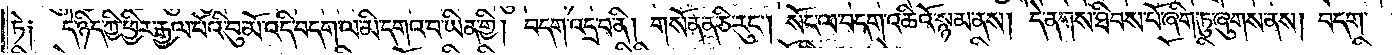ཏེ༑ དེ་ཉིད་ཀྱི་ཕྱིར་རྒྱལ་པོའི་བུ་མོ་འདི་བདག་ལ་མི་དགའ་བ་ཡིན་གྱི། བདག་འདྲ་བ་ནི། གསོན་ན་ཅི་རུང༌། སོང་ལ་བདག་འཆིའོ་སྙམ་ནས། དེ་ནགས་ཐིབས་པོ་ཞིག་ཏུ་ཞུགས་ནས། བདག་
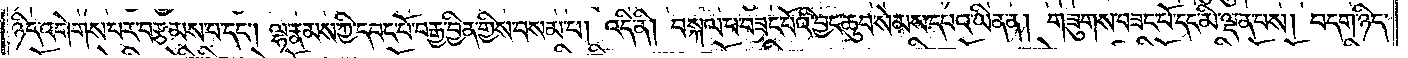ཉིད་འགེགས་པར་བརྩམས་པ་དང༌། ལྷ་རྣམས་ཀྱི་དབང་པོ་བརྒྱ་བྱིན་གྱིས་བསམ་པ། འདི་ནི། བསྐལ་པ་བཟང་པོའི་བྱང་ཆུབ་སེམས་དཔའ་ཡིན་ན། གཟུགས་བཟང་པོ་དང་མི་ལྡན་པས། བདག་ཉིད་
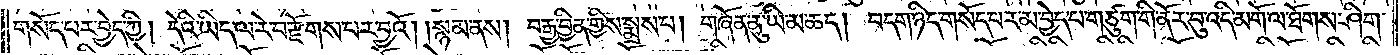གསོད་པར་བྱེད་ཀྱི། དེའི་ཡིད་ལ་རེ་བ་རྫོགས་པར་བྱའོ། །སྙམ་ནས། བརྒྱ་བྱིན་གྱིས་སྨྲས་པ། གཞོན་ནུ་ཡི་མ་ཆད། བདག་ཉིད་གསོད་པར་མ་བྱེད་པ་གཙུག་གི་ནོར་བུ་འདི་མགོ་ལ་ཐོགས་ཤིག་
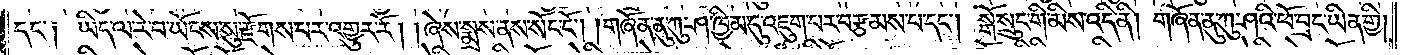དང་༑ ཡིད་ལ་རེ་བ་ཡོངས་སུ་རྫོགས་པར་འགྱུར་རོ། །ཞེས་སྨྲས་ནས་སོང་ངོ༌། །གཞོན་ནུ་ཀུ་ཤ་ཁྱིམ་དུ་འཇུག་པར་བརྩམས་པ་དང༌། སྒོ་སྲུང་གི་མིས་འདི་ནི། གཞོན་ནུ་ཀུ་ཤའི་ཕོ་བྲང་ཡིན་གྱི།
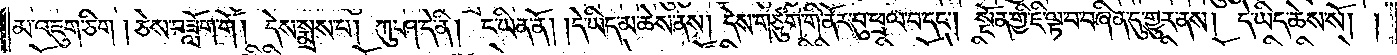མ་འཇུག་ཅིག །ཅེས་བཟློག་གོ །དེ་སྨྲས་པ། ཀུ་ཤ་དེ་ནི། ང་ཡིན་ནོ། །དེ་ཡིད་མ་ཆེས་ནས། དེས་གཙུག་གི་ནོར་བུ་ཕྲལ་བ་དང༌། སྔོན་གྱི་ཇི་ལྟ་བ་བཞིན་དུ་གྱུར་ནས། དེ་ཡིད་ཆེས་སོ། །
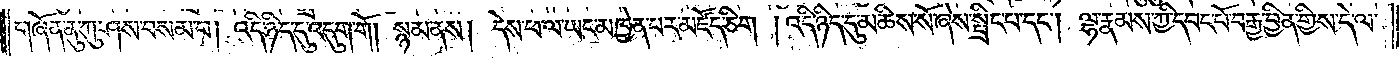གཞོན་ནུ་ཀུ་ཤས་བསམ་པ། འདི་ཉིད་དུ་འདུག་གོ །སྙམ་ནས། དེས་ཕ་ལ་ཡང་མཁྱེན་པར་མཛོད་ཅིག །འདི་ཉིད་དུ་མཆིས་སོ་ཞེས་སྤྲིང་པ་དང༌། ལྷ་རྣམས་ཀྱི་དབང་པོ་བརྒྱ་བྱིན་གྱིས་དེ་ལ་
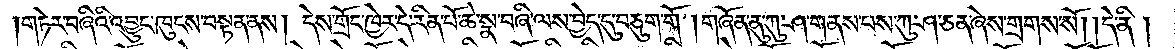གཏེར་བཞིའི་འབྱུང་ཁུངས་བསྟན་ནས། དེས་གྲོང་ཁྱེར་དེ་རིན་པོ་ཆེ་སྣ་བཞི་ལས་བྱེད་དུ་བཅུག་གོ །གཞོན་ནུ་ཀུ་ཤ་གནས་པས་ཀུ་ཤ་ཅན་ཞེས་གྲགས་སོ། །དེ་ནི།
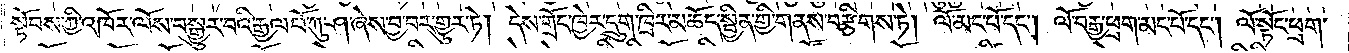སྟོབས་ཀྱི་འཁོར་ལོས་བསྒྱུར་བའི་རྒྱལ་པོ་ཀུ་ཤ་ཞེས་བྱ་བར་གྱུར་ཏེ། དེས་གྲོང་ཁྱེར་དྲུག་ཁྲིར་མཆོད་སྦྱིན་གྱི་གནས་བརྩིགས་ཏེ། ལོ་མང་པོ་དང༌། ལོ་བརྒྱ་ཕྲག་མང་པོ་དང༌། ལོ་སྟོང་ཕྲག་
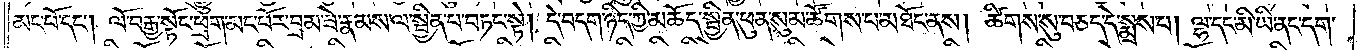མང་པོ་དང༌། ལོ་བརྒྱ་སྟོང་ཕྲག་མང་པོར་བྲམ་ཟེ་རྣམས་ལ་སྦྱིན་པ་བཏང་སྟེ། དེ་བདག་ཉིད་ཀྱི་མཆོད་སྦྱིན་ཕུན་སུམ་ཚོགས་པ་མཐོང་ནས། ཚིགས་སུ་བཅད་དེ་སྨྲས་པ། ལྷ་དང་མི་ཡི་ནང་དག་
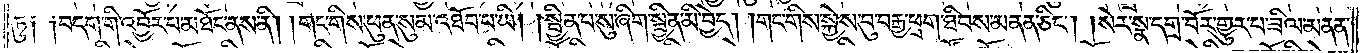ཏུ༑ ༑བདག་གི་འབྱོར་པ་མཐོང་ནས་ནི། །གང་གིས་ཕུན་སུམ་འཐོབ་པ་ཡི། སྦྱིན་པ་སུ་ཞིག་སྦྱིན་མི་བྱེད། །གང་གིས་སྐྱེས་བུ་བརྒྱ་ཕྲག་ཐིབས་མནན་ཅིང༌། །སེར་སྣ་དགྲ་བོར་གྱུར་པ་ཟིལ་མནན་
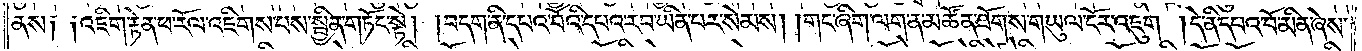ནས༑ ༑འཇིག་རྟེན་ཕ་རོལ་འཇིགས་པས་སྦྱིན་གཏོང་སྟེ། །བདག་ནི་དཔའ་བོའི་དཔའ་རབ་ཡིན་པར་སེམས། །གང་ཞིག་ལག་ན་མཚོན་ཐོགས་གཡུལ་ངོར་འཇུག །དེ་ནི་དཔའ་བོ་མིན་ཞེས་
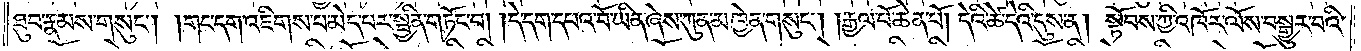ཐུབ་རྣམས་གསུང༌། །གང་དག་འཇིགས་པ་མེད་པར་སྦྱིན་གཏོང་བ། །དེ་དག་དཔའ་བོ་ཡིན་ཞེས་ཀུན་མཁྱེན་གསུང༌། །རྒྱལ་པོ་ཆེན་པོ། དེའི་ཚེ་དེའི་དུས་ན། སྟོབས་ཀྱི་འཁོར་ལོས་བསྒྱུར་བའི་
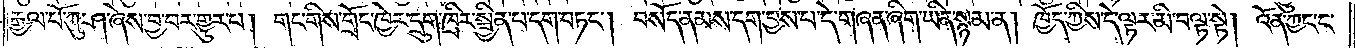རྒྱལ་པོ་ཀུ་ཤ་ཞེས་བྱ་བར་གྱུར་པ། གང་གིས་གྲོང་ཁྱེར་དྲུག་ཁྲིར་སྦྱིན་པ་དག་བཏང༌། བསོད་ནམས་དག་བྱས་པ་དེ་གཞན་ཞིག་ཡིན་སྙམ་ན། ཁྱོད་ཀྱིས་དེ་ལྟར་མི་བལྟ་སྟེ། འོན་ཀྱང་ང་
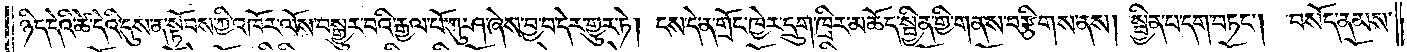ཉིད་དེའི་ཚེ་དེའི་དུས་ན་སྟོབས་ཀྱི་འཁོར་ལོས་བསྒྱུར་བའི་རྒྱལ་པོ་ཀུ་ཤ་ཞེས་བྱ་བ་དེར་གྱུར་ཏེ། ངས་དེ་ན་གྲོང་ཁྱེར་དྲུག་ཁྲིར་མཆོད་སྦྱིན་གྱི་གནས་བརྩིགས་ནས། སྦྱིན་པ་དག་བཏང༌། བསོད་ནམས་
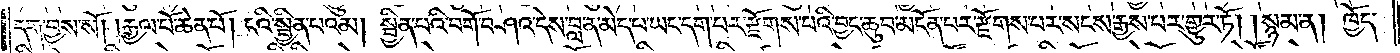དག་བྱས་སོ། །རྒྱལ་པོ་ཆེན་པོ། ངའི་སྦྱིན་པའམ། སྦྱིན་པའི་བགོ་བཤའ་དེས་བླ་ན་མེད་པ་ཡང་དག་པར་རྫོགས་པའི་བྱང་ཆུབ་མངོན་པར་རྫོགས་པར་སངས་རྒྱས་བར་གྱུར་ཏོ། །སྙམ་ན། ཁྱོད་
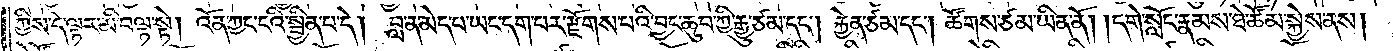ཀྱིས་དེ་ལྟར་མི་བལྟ་སྟེ། འོན་ཀྱང་ངའི་སྦྱིན་པ་དེ། བླ་ན་མེད་པ་ཡང་དག་པར་རྫོགས་པའི་བྱང་ཆུབ་ཀྱི་རྒྱུ་ཙམ་དང༌། རྐྱེན་ཙམ་དང༌། ཚོགས་ཙམ་ཡིན་ནོ། །དགེ་སློང་རྣམས་ཐེ་ཚོམ་སྐྱེས་ནས།
